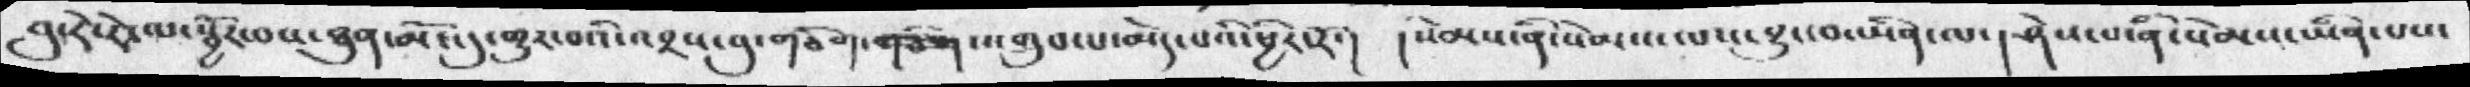བུ་རེ་རེ་ལ་སྦྱོར་བས་ཐུན་མོང་དུ་གྱུར་བའི་འབྲས་བུ་གཅིག་གཅིག་འགྲུབ་པ་མེད་པའི་ཕྱིར་རོ་།  །སེམས་ནི་སེམས་པས་བྱུང་བ་ཡིན་ལ་། ཤེས་པ་ནི་སེམས་ཡིན་པས་
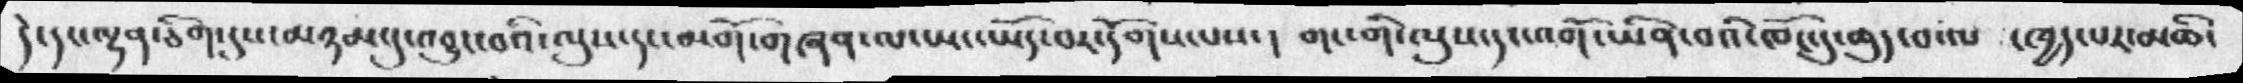དེ་དང་ལྷན་ཅིག་དུས་མཉམ་དུ་འབྱུང་བའི་ལུས་དང་མགོ་གཞན་ལ་ཡང་ཡོད་བར་དོགས་པས་།  གང་གི་ལུས་དང་འགོ་ཡིན་བའི་ཁོང་དུ་ཆུད་བ་ལ  ་ཁྱད་པར་མཆི་
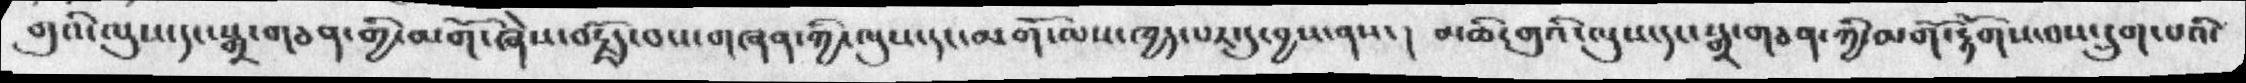གུའི་ལུས་དང་སྒྲ་གཅན་གྱི་མགོ་ཞེས་བརྗོད་བས་གཞན་ཀྱི་ལུས་དང་མགོ་ལས་ཁྱད་པར་དུ་བྱས་ནས་། མཆི་གུའི་ལུས་དང་སྒྲ་གཅན་ཀྱི་མགོ་རྟོགས་བས་དྲུག་པའི་
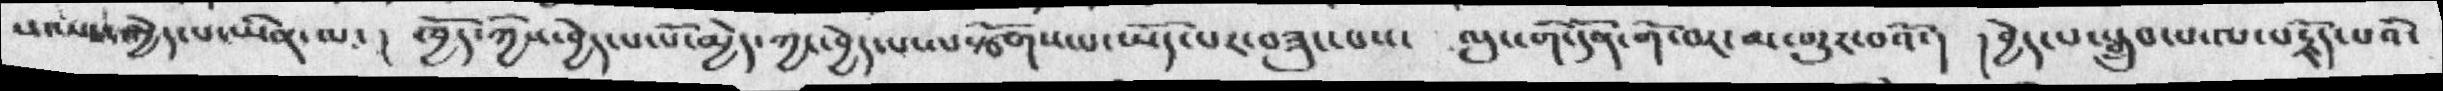པ་ལས་སྐྱེད་པ་ཡིན་ལ་།  ཁྱོད་ཀྱིས་བྱེད་པ་པོ་མྱེད་ཀྱང་བྱེད་པ་ལསྩོགས་པ་ཡོད་པར་བཟུང་པས་  ལུང་གི་དོན་གོ་བར་མ་གྱུར་བའོ་། །བྱེད་པ་སྒྲུབ་པ་ལ་བརྗོད་པའི་
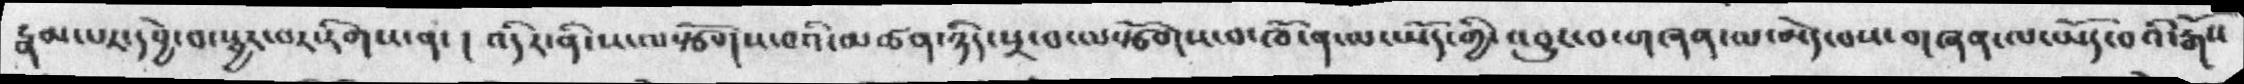རྣམ་པར་དབྱེ་བ་སྦྱར་བར་རིགས་ན་།  འདིར་ནི་ས་ལསྩོགས་བའི་མཚན་ཉིད་སྲ་བ་ལསྩོགས་བ་ཁོ་ན་ལ་ཡོད་ཀྱི་འབྱུང་བ་གཞན་ལ་མེད་པས་གཞན་ལ་ཡོད་བའི་རྒོས
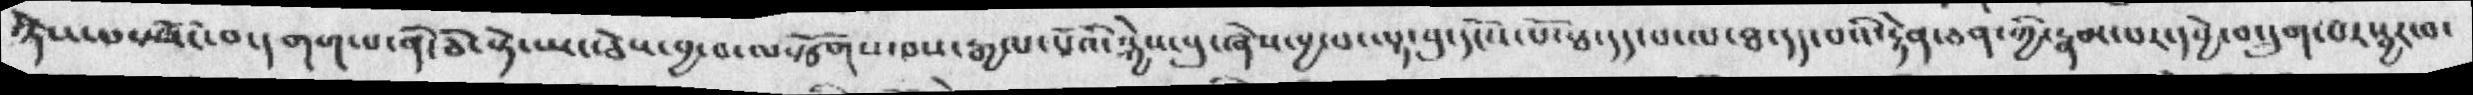ཉེས་པ་སྤོང་བ་དགག་པ་ནི་ཅི་སྟེ་ཡང་ཅེས་བྱ་བ་ལསྩོགས་བས་རྒྱལ་པོའི་སྐྱེས་བུ་ཞེས་བྱ་བ་ལྟ་བུ་དངོས་པོ་ཐ་དད་པ་ལ་ཐ་དད་པའི་རྟེན་ཅན་ཀྱི་རྣམ་པར་དབྱེ་བ་དྲུག་པར་སྦྱར་བ་
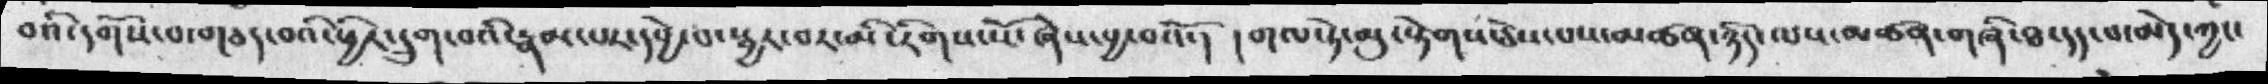བའི་དགོས་པ་གཅད་བའི་ཕྱིར་དྲུག་བའི་རྣམ་པར་དབྱེ་བ་སྦྱར་བར་མི་རིགས་སོ་ཞེས་བྱ་བའོ་། །གལ་ཏེ་མུ་སྟེགས་ཅེས་པས་མཚན་ཉིད་ལས་མཚན་གཞི་ཐ་དད་པ་མེད་ཀྱང་
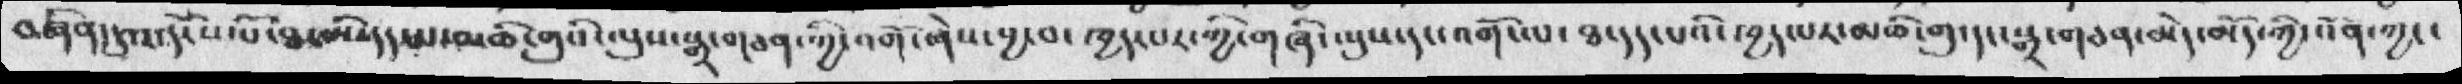བཞིན་དུའ་དངོས་པོ་ཐ་མི་དད་པ་མཆི་གུའི་ལུས་སྒྲ་གཅན་ཀྱི་འགོ་ཞེས་བྱ་བ་ཁྱད་པར་གྱི་གཞི་ལུས་དང་འགོ་ལ་ཐ་དད་པའི་ཁྱད་པར་མཆི་གུ་དང་སྒྲ་གཅན་མེད་མོད་ཀྱི་འོན་ཀྱང་
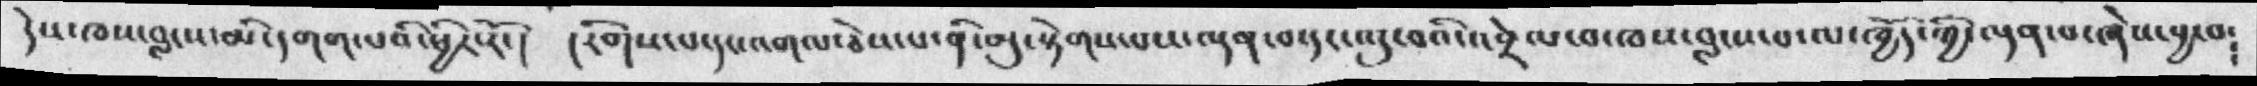དེས་ཁས་བླངས་མི་དགག་པའི་ཕྱིར་རོ་།  །རིགས་པ་དང་འགལ་ཅེས་པ་ནི་མུ་སྟེགས་པས་ལྡན་བ་དང་འདུ་བའི་འབྲེལ་བ་ཁས་བླངས་པ་ལ་ཁྱོད་ཀྱི་ལྡན་པ་ཞེས་བྱ་བ༴
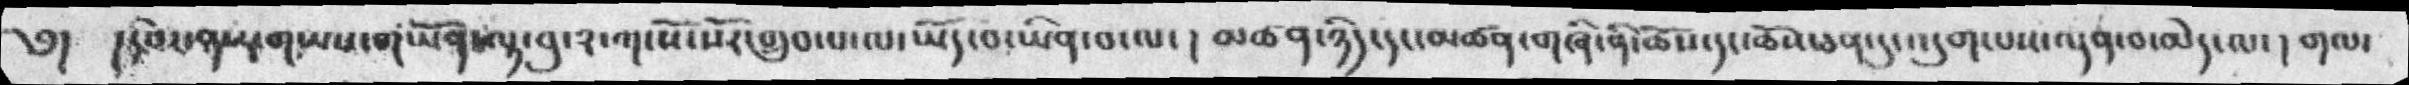༅།  །དཔེར་ན་གཡས་གཡོན་ལྟ་བུ་༢་ཀ་སོ་སོར་གྲུབ་པ་ལ་ཡོད་བ་ཡིན་བ་ལ་།  མཚན་ཉིད་དང་མཚན་གཞི་ནི་ཆོས་དང་ཆོས་ཅན་དུ་འདུག་པས་ལྡན་བ་མེད་ལ་། གལ་
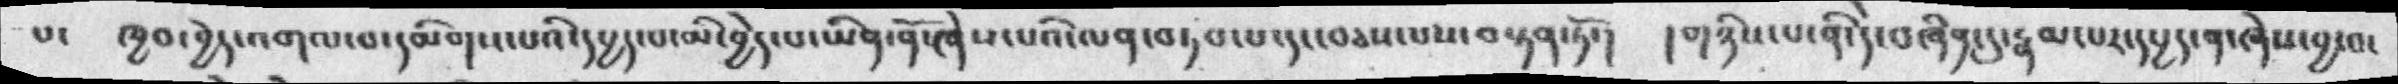པ་  ཁྱབ་བྱེད་འགལ་བ་དམིགས་པའི་དཔྱད་པ་མི་བྱེད་པ་ཡིན་ནོ་ཞེས་པའི་ལན་བཏབ་པ་དང་བཅས་པས་བསྟན་ཏོ་།  །གཉིས་པ་ནི་དེ་བཞིན་དུ་རྣམ་པར་དཔྱད་ན་ཞེས་བྱ་བ་
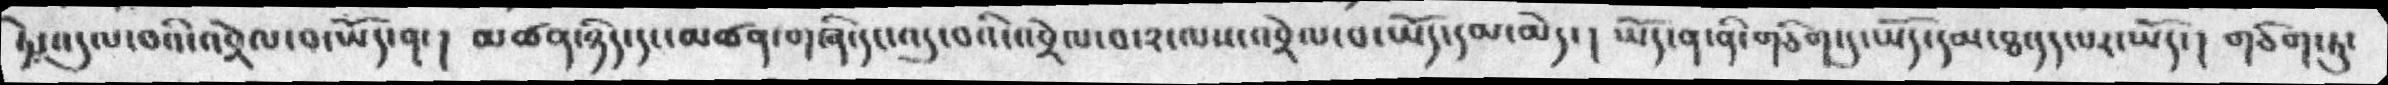ཏེ་འདུལ་བའི་འབྲེལ་བ་ཡོད་ན་།  མཚན་ཉིད་དང་མཚན་གཞི་དང་འདུ་བའི་འབྲེལ་བ་༢་ལས་འབྲེལ་བ་ཡོད་དམ་མེད་།  ཡོད་ན་ནི་གཅིག་དུ་ཡོད་དམ་ཐ་དད་པར་ཡོད་།  གཅིག་ཏུ་
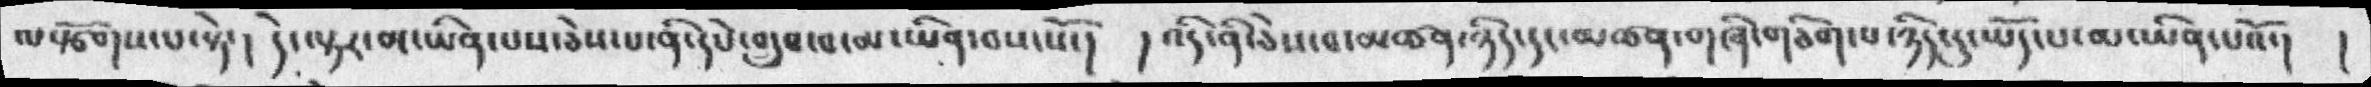ལསྩོགས་པ་སྟེ་། དེ་ལྟར་མ་ཡིན་པས་ཅེས་པ་ནི་དཔེ་གྲུབ་བ་མ་ཡིན་བས་སོ་།  །འདི་ནི་ཅེས་བ་མཚན་ཉིད་དང་མཚན་གཞི་གཅིག་པ་ཉིད་དུ་ཡོད་པ་མ་ཡིན་པའོ་། །
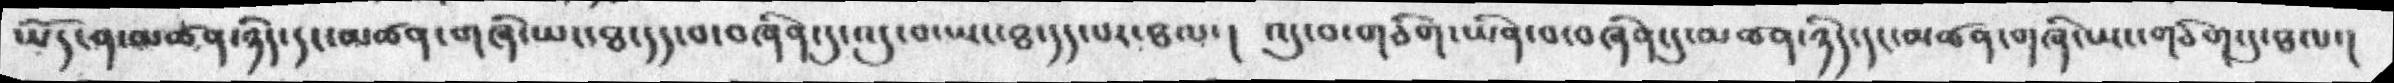ཡོད་ན་མཚན་ཉིད་དང་མཚན་གཞི་ཡང་ཐ་དད་བ་བཞིན་དུ་འདུ་བ་ཡང་ཐ་དད་པར་ཐལ་། འདུ་བ་གཅིག་ཡིན་བ་བཞིན་དུ་མཚན་ཉིད་དང་མཚན་གཞི་ཡང་གཅིག་དུ་ཐལ་།
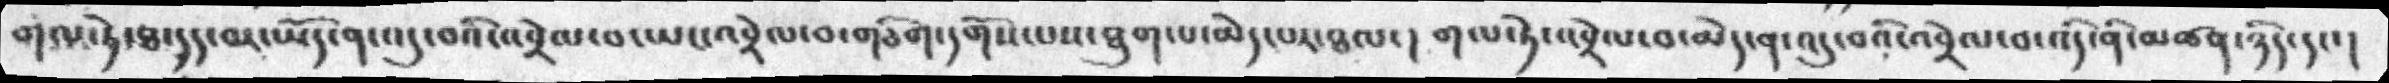གལ་ཏེ་ཐ་དད་ལ་ཡོད་ན་འདུ་བའི་འབྲེལ་བ་གཅིག་དགོས་པས་ཐུག་པ་མེད་པར་ཐལ་། གལ་ཏེ་འབྲེལ་བ་མེད་ན་འདུ་བའི་འབྲེལ་བ་འདི་ནི་མཚན་ཉིད་དང་།
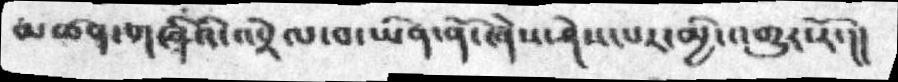མཚན་གཞིའི་འབྲེལ་བ་ཡིན་ནོ་ཞེས་ཤེས་པར་མྱི་འགྱུར་རོ་།།
